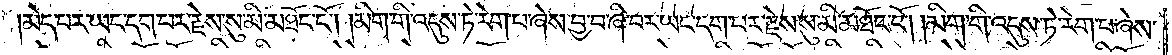མེད་པར་ཡང་དག་པར་རྗེས་སུ་མི་མཐོང་ངོ༌། །མིག་གི་འདུས་ཏེ་རེག་པ་ཞེས་བྱ་བ་ཞི་བར་ཡང་དག་པར་རྗེས་སུ་མི་མཐོང་ངོ༌། །མིག་གི་འདུས་ཏེ་རེག་པ་ཞེས་
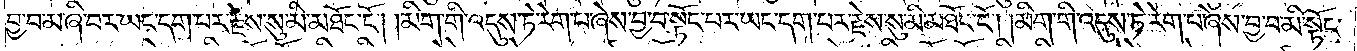བྱ་བ་མ་ཞི་བར་ཡང་དག་པར་རྗེས་སུ་མི་མཐོང་ངོ༌། །མིག་གི་འདུས་ཏེ་རེག་པ་ཞེས་བྱ་བ་སྟོང་པར་ཡང་དག་པར་རྗེས་སུ་མི་མཐོང་ངོ༌། །མིག་གི་འདུས་ཏེ་རེག་པ་ཞེས་བྱ་བ་མི་སྟོང་
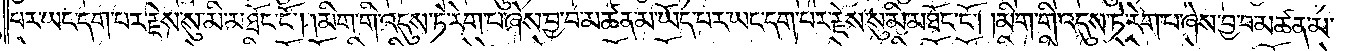པར་ཡང་དག་པར་རྗེས་སུ་མི་མཐོང་ངོ༌། །མིག་གི་འདུས་ཏེ་རེག་པ་ཞེས་བྱ་བ་མཚན་མ་ཡོད་པར་ཡང་དག་པར་རྗེས་སུ་མི་མཐོང་ངོ༌། །མིག་གི་འདུས་ཏེ་རེག་པ་ཞེས་བྱ་བ་མཚན་མ་
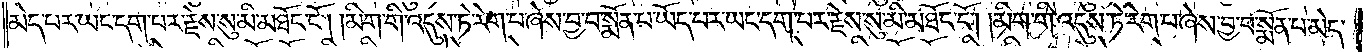མེད་པར་ཡང་དག་པར་རྗེས་སུ་མི་མཐོང་ངོ༌། །མིག་གི་འདུས་ཏེ་རེག་པ་ཞེས་བྱ་བ་སྨོན་པ་ཡོད་པར་ཡང་དག་པར་རྗེས་སུ་མི་མཐོང་ངོ༌། །མིག་གི་འདུས་ཏེ་རེག་པ་ཞེས་བྱ་བ་སྨོན་པ་མེད་
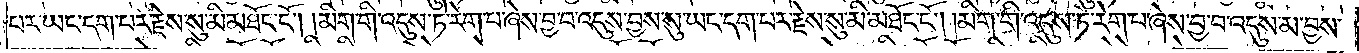པར་ཡང་དག་པར་རྗེས་སུ་མི་མཐོང་ངོ༌། །མིག་གི་འདུས་ཏེ་རེག་པ་ཞེས་བྱ་བ་འདུས་བྱས་སུ་ཡང་དག་པར་རྗེས་སུ་མི་མཐོང་ངོ༌། །མིག་གི་འདུས་ཏེ་རེག་པ་ཞེས་བྱ་བ་འདུས་མ་བྱས་
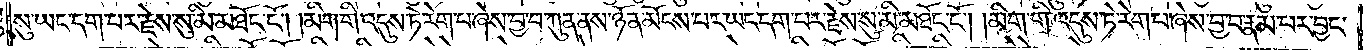སུ་ཡང་དག་པར་རྗེས་སུ་མི་མཐོང་ངོ༌། །མིག་གི་འདུས་ཏེ་རེག་པ་ཞེས་བྱ་བ་ཀུན་ནས་ཉོན་མོངས་པར་ཡང་དག་པར་རྗེས་སུ་མི་མཐོང་ངོ༌། །མིག་གི་འདུས་ཏེ་རེག་པ་ཞེས་བྱ་བ་རྣམ་པར་བྱང་
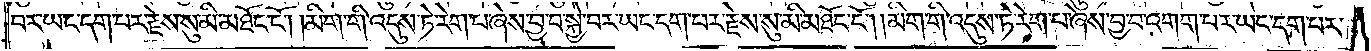བར་ཡང་དག་པར་རྗེས་སུ་མི་མཐོང་ངོ༌། །མིག་གི་འདུས་ཏེ་རེག་པ་ཞེས་བྱ་བ་སྐྱེ་བར་ཡང་དག་པར་རྗེས་སུ་མི་མཐོང་ངོ༌། །མིག་གི་འདུས་ཏེ་རེག་པ་ཞེས་བྱ་བ་འགག་པར་ཡང་དག་པར་
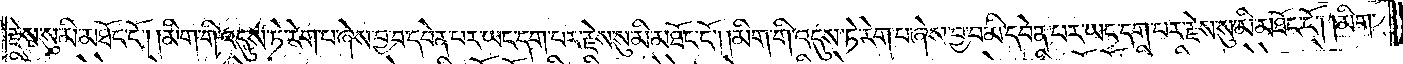རྗེས་སུ་མི་མཐོང་ངོ༌། །མིག་གི་འདུས་ཏེ་རེག་པ་ཞེས་བྱ་བ་དབེན་པར་ཡང་དག་པར་རྗེས་སུ་མི་མཐོང་ངོ༌། །མིག་གི་འདུས་ཏེ་རེག་པ་ཞེས་བྱ་བ་མི་དབེན་པར་ཡང་དག་པར་རྗེས་སུ་མི་མཐོང་ངོ༌། །མིག་
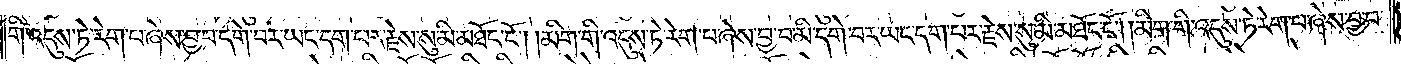གི་འདུས་ཏེ་རེག་པ་ཞེས་བྱ་བ་དགེ་བར་ཡང་དག་པར་རྗེས་སུ་མི་མཐོང་ངོ༌། །མིག་གི་འདུས་ཏེ་རེག་པ་ཞེས་བྱ་བ་མི་དགེ་བར་ཡང་དག་པར་རྗེས་སུ་མི་མཐོང་ངོ༌། །མིག་གི་འདུས་ཏེ་རེག་པ་ཞེས་བྱ་བ་
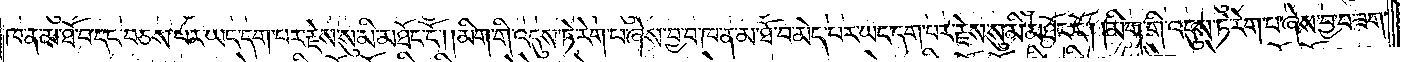ཁ་ན་མ་ཐོ་བ་དང་བཅས་པར་ཡང་དག་པར་རྗེས་སུ་མི་མཐོང་ངོ༌། །མིག་གི་འདུས་ཏེ་རེག་པ་ཞེས་བྱ་བ་ཁ་ན་མ་ཐོ་བ་མེད་པར་ཡང་དག་པར་རྗེས་སུ་མི་མཐོང་ངོ༌། །མིག་གི་འདུས་ཏ་རེག་པ་ཞེས་བྱ་བ་ཟག་
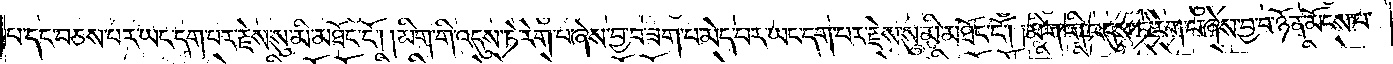པ་དང་བཅས་པར་ཡང་དག་པར་རྗེས་སུ་མི་མཐོང་ངོ༌། །མིག་གི་འདུས་ཏེ་རེག་པ་ཞེས་བྱ་བ་ཟག་པ་མེད་པར་ཡང་དག་པར་རྗེས་སུ་མི་མཐོང་ངོ༌། །མིག་གི་འདུས་ཏེ་རེག་པ་ཞེས་བྱ་བ་ཉོན་མོངས་པ་
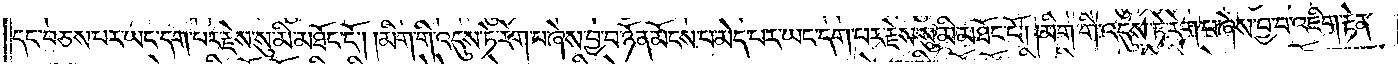དང་བཅས་པར་ཡང་དག་པར་རྗེས་སུ་མི་མཐོང་ངོ༌། །མིག་གི་འདུས་ཏེ་རེག་པ་ཞེས་བྱ་བ་ཉོན་མོངས་པ་མེད་པར་ཡང་དག་པར་རྗེས་སུ་མི་མཐོང་ངོ༌། །མིག་གི་འདུས་ཏེ་རེག་པ་ཞེས་བྱ་བ་འཇིག་རྟེན་
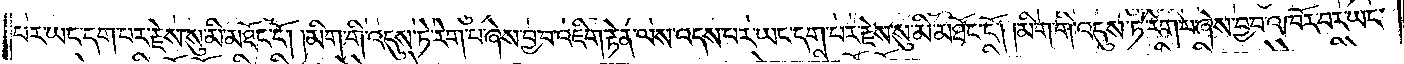པར་ཡང་དག་པར་རྗེས་སུ་མི་མཐོང་ངོ༌། །མིག་གི་འདུས་ཏེ་རེག་པ་ཞེས་བྱ་བ་འཇིག་རྟེན་ལས་འདས་པར་ཡང་དག་པར་རྗེས་སུ་མི་མཐོང་ངོ༌། །མིག་གི་འདུས་ཏེ་རེག་པ་ཞེས་བྱ་བ་འཁོར་བར་ཡང་
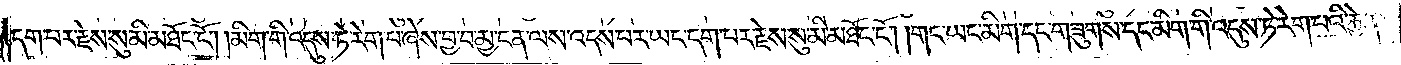དག་པར་རྗེས་སུ་མི་མཐོང་ངོ༌། །མིག་གི་འདུས་ཏེ་རེག་པ་ཞེས་བྱ་བ་མྱ་ངན་ལས་འདས་པར་ཡང་དག་པར་རྗེས་སུ་མི་མཐོང་ངོ༌། །གང་ཡང་མིག་དང་གཟུགས་དང་མིག་གི་འདུས་ཏེ་རེག་པའི་རྐྱེན་
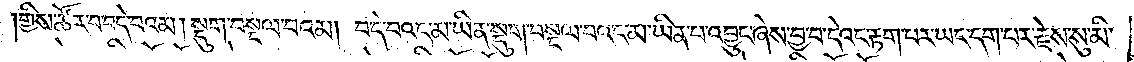གྱིས་ཚོར་བ་བདེ་བའམ། སྡུག་བསྔལ་བའམ། བདེ་བའང་མ་ཡིན་སྡུག་བསྔལ་བའང་མ་ཡིན་པ་འབྱུང་ཞེས་བྱ་བ་དེའང་རྟག་པར་ཡང་དག་པར་རྗེས་སུ་མི་
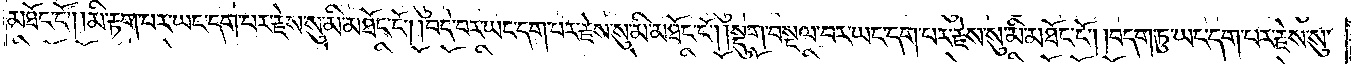མཐོང་ངོ༌། །མི་རྟག་པར་ཡང་དག་པར་རྗེས་སུ་མི་མཐོང་ངོ༌། །བདེ་བར་ཡང་དག་པར་རྗེས་སུ་མི་མཐོང་ངོ༌། །སྡུག་བསྔལ་བར་ཡང་དག་པར་རྗེས་སུ་མི་མཐོང་ངོ༌། །བདག་ཏུ་ཡང་དག་པར་རྗེས་སུ་
